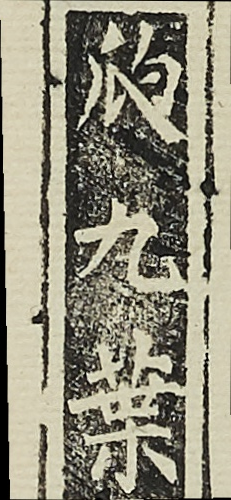瓝九䓱
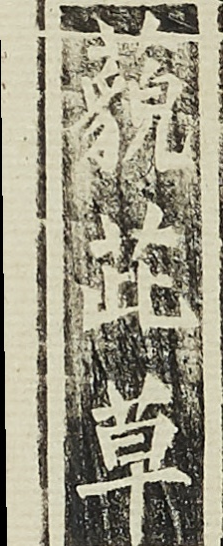藐茈草
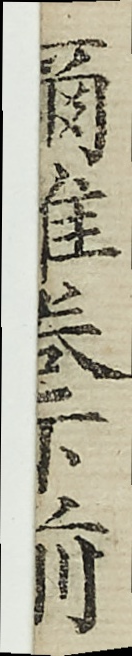爾雅卷下前
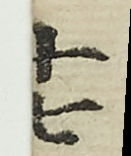十七
